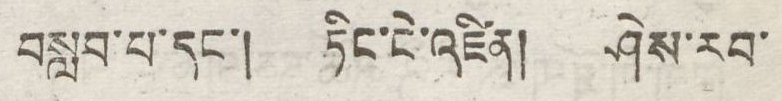བསླབ་པ་དང་། ཏིང་ངེ་འཛིན། ཤེས་རབ་
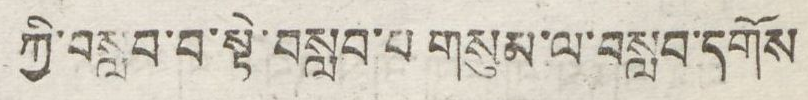ཀྱི་བསླབ་བ་སྟེ་བསླབ་པ གསུམ་ལ་བསླབ་དགོས
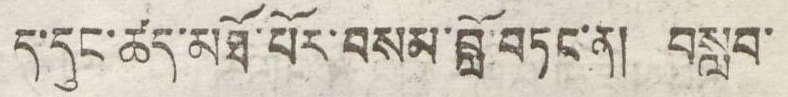ད་དུང་ཚད་མཐོ་པོར་བསམ་བློ་བཏང་ན། བསླབ་
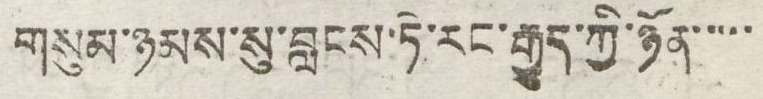གསུམ་ཉམས་སུ་བླངས་ཏེ་རང་རྒྱུད་ཀྱི་ཉོན་་་་་
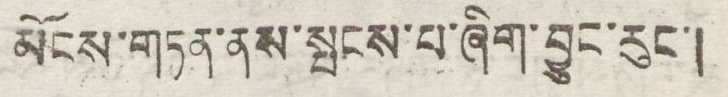མོངས་གཏན་ནས་སྤངས་པ་ཞིག་བྱུང་རུང་།
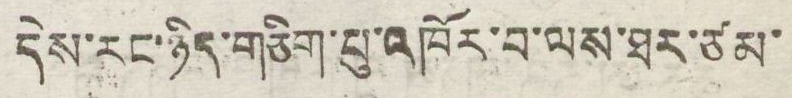དེས་རང་ཉིད་གཅིག་པུ་འཁོར་བ་ལས་ཐར་ཙམ་
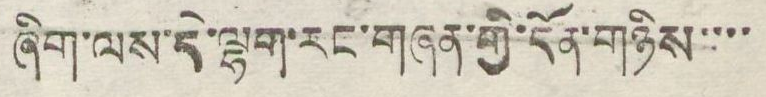ཞིག་ལས་དེ་ལྷག་རང་གཞན་གྱི་དོན་གཉིས་་་་
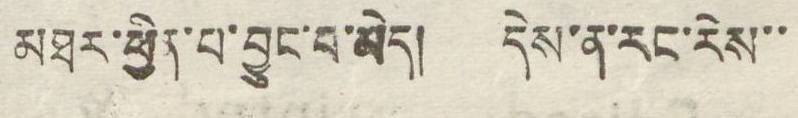མཐར་ཕྱིན་པ་བྱུང་བ་མེད། དེས་ན་རང་རེས་་
